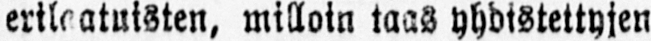erilaatuisten, milloin taas yhdistettyjen
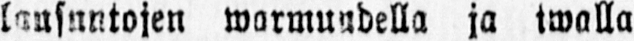lausuntojen warmuudella ja tawalla.
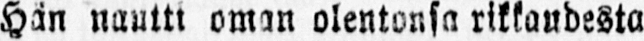Hän nautti oman olentonsa rikkaudesta
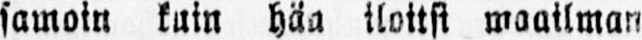samoin kuin häa iloitsi maailman
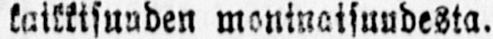kaikkisuuden moninaisuudesta.
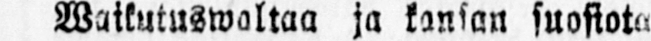Waikutuswaltaa ja kansan suosiota
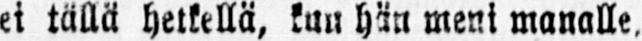ei tällä hetkellä, kuu hän meni manalle,
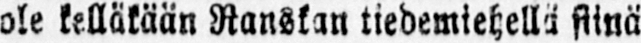ole kelläkäan Ranskan tiedemiehellä siinä
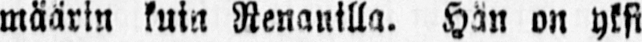määrin kuin Renanilla. Hän on yksi
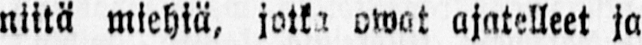niitä miehiä, jotka owat ajatelleet ja
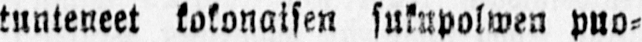tunteneet kokonaisen sukupolwen puo-
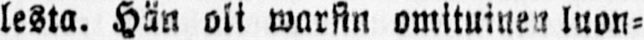lesta. Hän oli warsin omituinen luon-
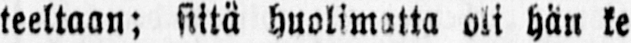teeltaan; siitä huolimaita oli hän ke
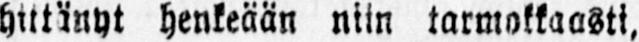hittänyt henkeään niin tarmokkaasti,
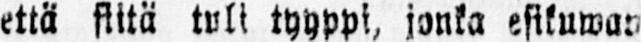että siitä tuli tyyppi, jonka esikuwan
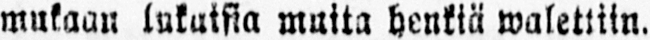mukaan lukuisia muita henkiä walettiin.
